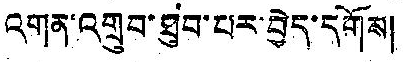འགན་འགྲུབ་ཐུབ་པར་བྱེད་དགོས།
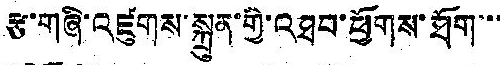རྩ་གཞི་འཛུགས་སྐྲུན་གྱི་འཐབ་ཕྱོགས་ཐོག་་་
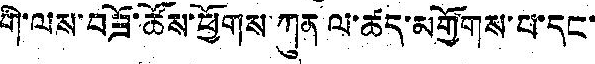གི་ལས་བཟོ་ཚོས་ཕྱོགས་ཀུན ལ་ཚད་མགྱོགས་པ་དང་
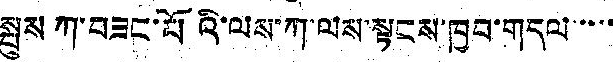སྤུས ཀ་བཟང་པོའི་ལས་ཀ་ལས་སྟངས་ཁྱབ་གདལ་་་་
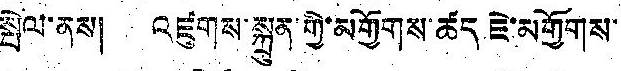སྤེལ་ནས། འཛུགས་སྐྲུན་གྱི་མགྱོགས་ཚད ཇེ་མགྱོགས་
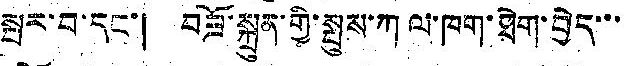སྤར་བ་དང་། བཟོ་སྐྲུན་གྱི་སྤུས་ཀ ལ་ཁག་ཐེག་བྱེད་་་
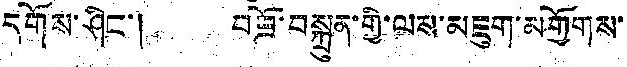དགོས་ཤིང་། བཟོ་བསྐྲུན་གྱི་ལས་མཇུག་མགྱོགས་
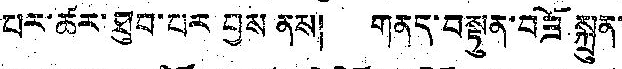པར་ཚར་ཐུབ་པར བྱས ནས། གནད་བསྟུན་བཟོ སྐྲུན་
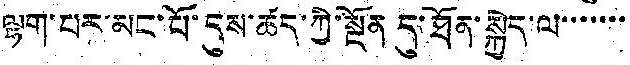ལྷག་པར་མང་པོ་དུས་ཚད་ཀྱི་སྔོན དུ་ཐོན་སྐྱེད་ལ་་་་་་་
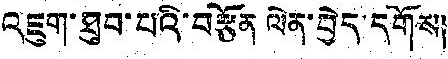འཇུག་ཐུབ་པའི་བརྩོན ལེན་བྱེད་དོགས།
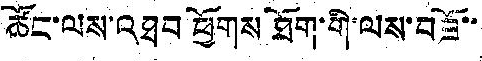ཚོང་ལས་འཐབ ཕྱོགས ཐོག་གི་ལས་བཟོ་་
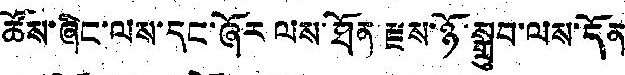ཚོས་ཞིང་ལས་དང་ཞོར ལས་ཐོན་རྫས་ཉོ་སྒྲུབ་ལས་དོན
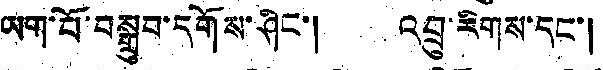ཡག་པོ་བསྒྲུབ་དགོས་ཤིང་། འབྲུ་རིགས་དང་།
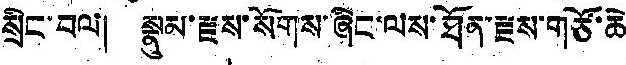སྲིང་བལ། སྣུམ་རྫས་སོགས་ཞིང་ལས་ཐོན་རྫས་གཙོ་ཆེ
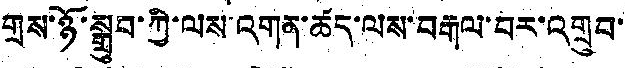གྲས་ཉོ་སྒྲུབ་ཀྱི་ལས་འགན་ཚད་ལས་བརྒལ་བར་འགྲུབ་
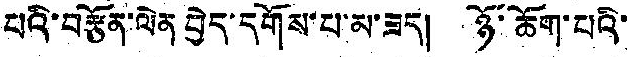པའི་བརྩོན་ལེན བྱེད་དགོས་པ་མ་ཟད། ཉོ་ཆོག་པའི་
